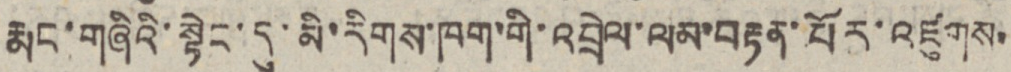རྨང་གཞིའི་སྟེང་དུ་མི་རིགས་ཁག་གི་འབྲེལ་ལམ་བརྟན་པོར་འཛུགས་
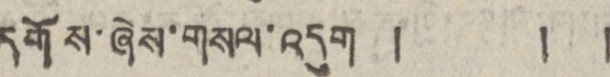དགོས་ཞེས་གསལ་འདུག ། ། །
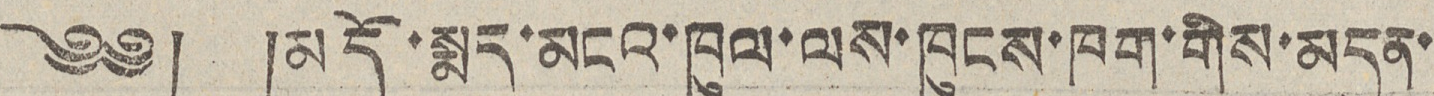༄༅། །མདོ་སྨད་མངའ་ཁུལ་ལས་ཁུངས་ཁག་གིས་མདུན་
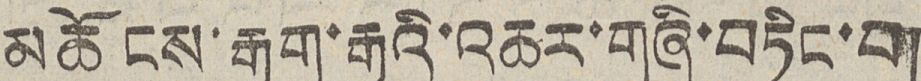མཆོགས་རྒྱག་རྒྱུའི་འཆར་གཞི་བཏིང་བ།
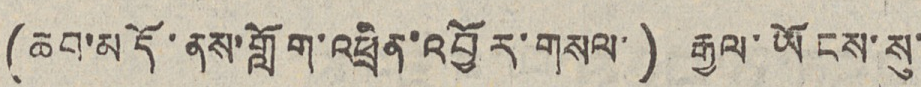(ཆབ་མདོ་ནས་གློག་འཕྲིན་འབྱོར་གསལ་) རྒྱལ་ཡོངས་སུ་
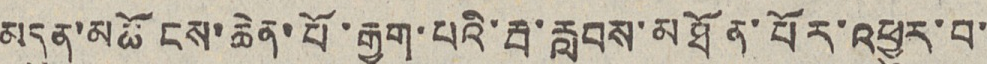མདུན་མཆོངས་ཆེན་པོ་རྒྱག་པའི་རྦ་རླབས་མཐོན་པོར་འཕྱུར་བ་
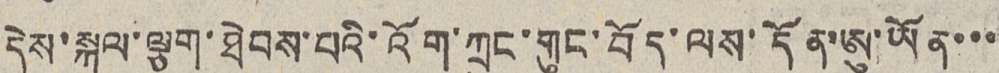དེས་སྐུལ་ལྕག་ཐེབས་པའི་འོག་ཀྲུང་གུང་བོད་ལས་དོན་ཨུ་ཡོན་་་
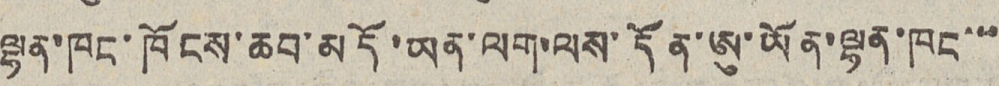ལྷན་ཁང་ཁོངས་ཆབ་མདོ་ཡན་ལག་ལས་དོན་ཨུ་ཡོན་ལྷན་ཁང་་་
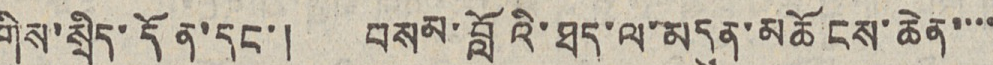གིས་སྲིད་དོན་དང་། བསམ་བློའི་ཐད་ལ་མདུན་མཆོངས་ཆེན་་་་
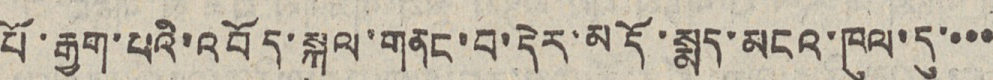པོ་རྒྱག་པའི་འབོད་སྐུལ་གནང་བ་དེར་མདོ་སྨད་མངའ་ཁུལ་དུ་་་་
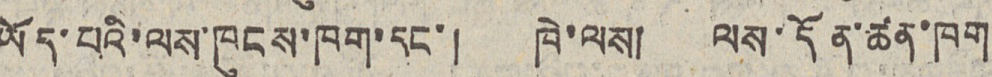ཡོད་པའི་ལས་ཁུངས་ཁག་དང་། ཁེ་ལས། ལས་དོན་ཚན་ཁག
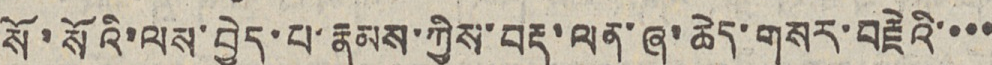སོ་སོའི་ལས་བྱེད་པ་རྣམས་ཀྱིས་བརྡ་ལན་ཞུ་ཆེད་གསར་བརྗེའི་་་་
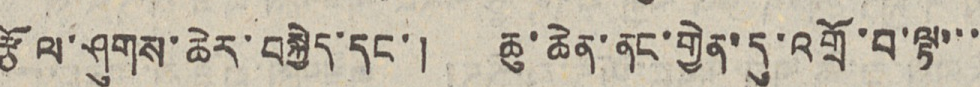རྩོལ་ཤུགས་ཆེར་བསྐྱེད་དང་། ཆུ་ཆེན་ནང་གྱེན་དུ་འགྲོ་བ་ལྟ་་་
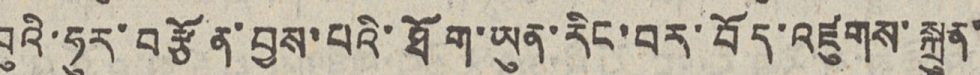བུའི་ཧུར་བརྩོན་བྱས་པའི་ཐོག་ཡུན་རིང་བར་བོད་འཛུགས་སྐྲུན་
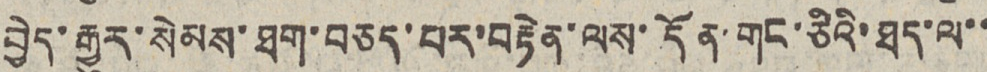བྱེད་རྒྱུར་སེམས་ཐག་བཅད་པར་བརྟེན་ལས་དོན་གང་ཅིའི་ཐད་ལ་་
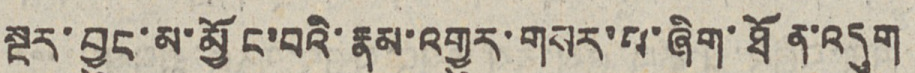སྔར་བྱུང་མ་མྱོང་བའི་རྣམ་འགྱུར་གསར་པ་ཞིག་ཐོན་འདུག
